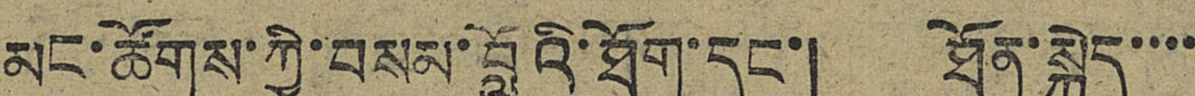མང་ཚོགས་ཀྱི་བསམ་བློའི་ཐོག་དང་། ཐོན་སྐྱེད་་་་
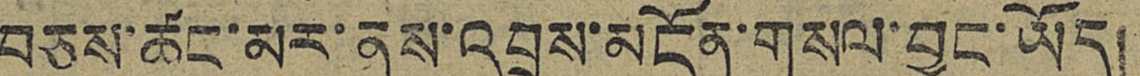བཅས་ཚང་མར་ནུས་འབྲས་མངོན་གསལ་བྱུང་ཡོད།
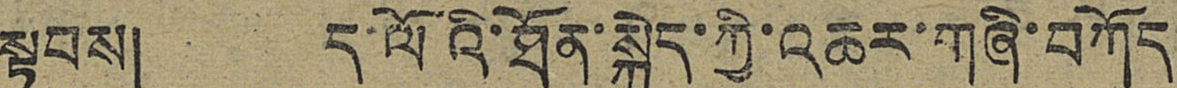སྟབས། ད་ལོའི་ཐོན་སྐྱེད་ཀྱི་འཆར་གཞི་བཀོད་
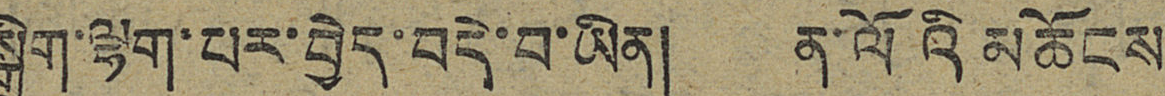སྒྲིག་ལྷག་པར་བྱེད་བདེ་བ་ཡིན། ན་ལོའི མཆོངས་
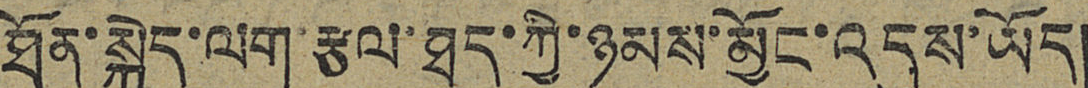ཐོན་སྐྱེད་ལག་རྩལ་ཐད་ཀྱི་ཉམས་མྱོང་འདུས་ཡོད།
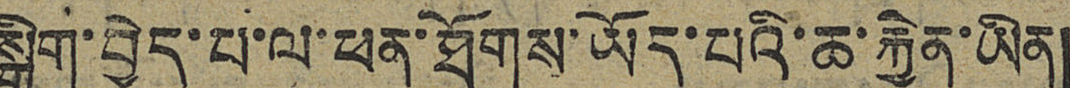སྒྲིག་བྱེད་པ་ལ་ཕན་ཐོགས་ཡོད་པའི་ཆ་རྐྱེན་ཡིན།
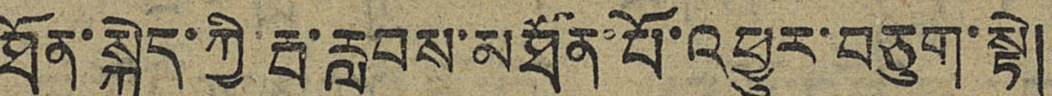ཐོན་སྐྱེད་ཀྱི་རྦ་རླབས་མཐོན་པོ་འཕྱུར་བཅུག་སྟེ།
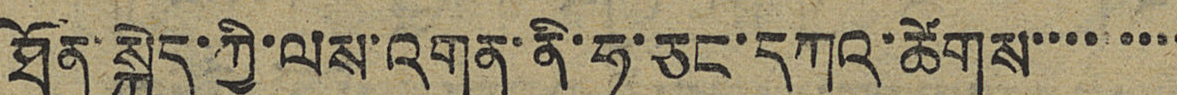ཐོན་སྐྱེད་ཀྱི་ལས་འགན་ནི་ཧ་ཅང་དཀའ་ཚེགས་་་་་་་་
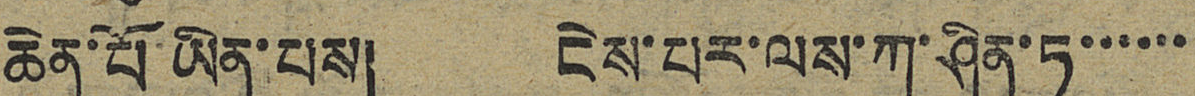ཆེན་པོ་ཡིན་པས། ངེས་པར་ལས་ཀ་ཤིན་ཏུ་་་་་་
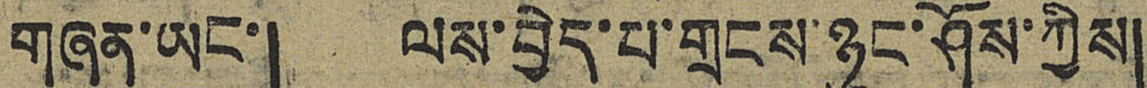གཞན་ཡང་། ལས་བྱེད་པ་གྲངས་ཉུང་ཤོས་ཀྱིས།
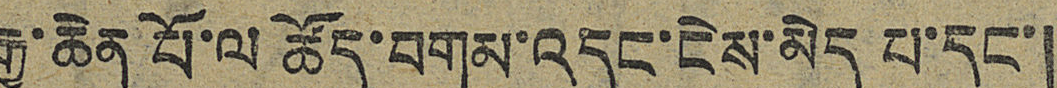རྒྱ་ཆེན པོ་ལ ཚོད་བགམ་འདང་ངེས་མེད པ་དང་།
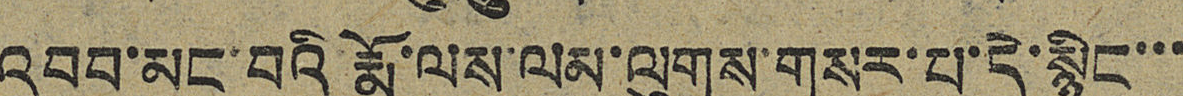འབབ་མང་བའི རྨོ་ལས་ལམ་ལུགས་གསར་པ་དེ་སྙིང་་་
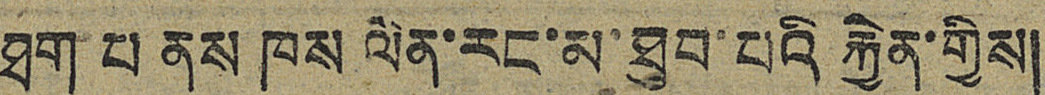ཐག པ ནས ཁས ལེན་རང་མ་ཐུབ་པའི རྐྱེན་གྱིས།
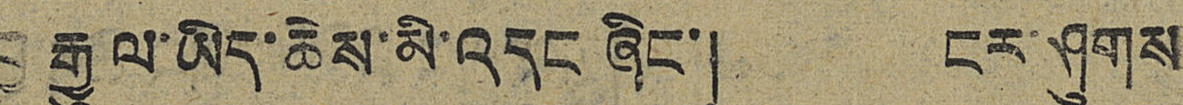བྱ་རྒྱུ ལ་ཡིད་ཆེས་མི་འདང ཞིང་། ངར་ཤུགས
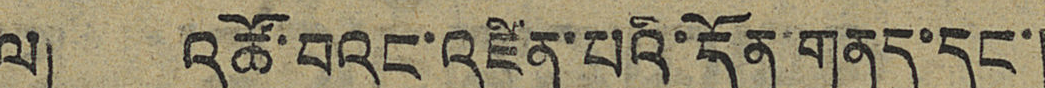ལ། འཚོ་བའང་འཛིན་པའི་དོན་གནད་དང་།
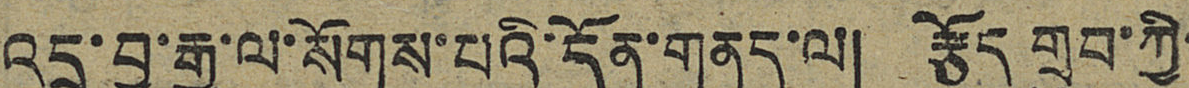འདྲ་བྱ་རྒྱུ་ལ་སོགས་པའི་དོན་གནད་ལ། རྩོད གྲུབ་ཀྱི་
